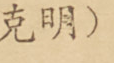克明）
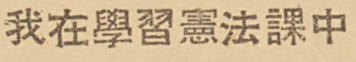我在學習憲法課中
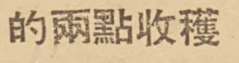的兩點收穫
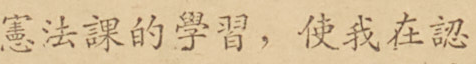憲法課的學習，使我在認
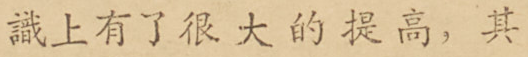識上有了很大的提高，其
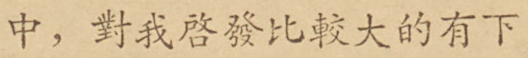中，對我啓發比較大的有下
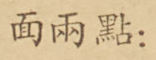面兩點：
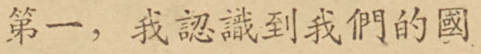第一，我認識到我們的國
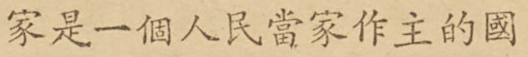家是一個人民當家作主的國
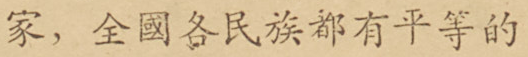家，全國各民族都有平等的
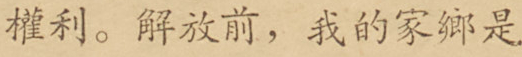權利。解放前，我的家鄉是
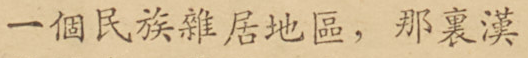一個民族雜居地區，那裏漢
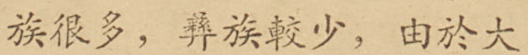族很多，彝族較少，由於大
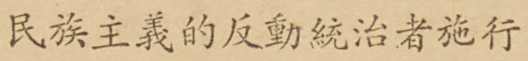民族主義的反動統治者施行
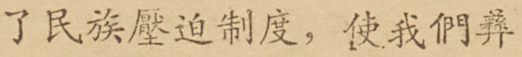了民族壓迫制度，使我們彝
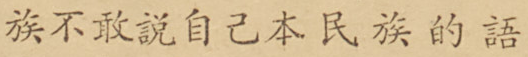族不敢說自己本民族的語
